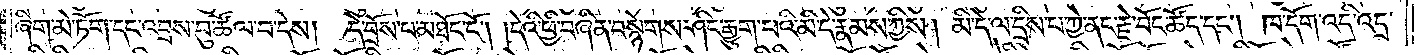ཞིག་མེ་ཏོག་དང་འབྲས་བུ་ཚོལ་བ་དེས། དེ་བྲོས་པ་མཐོང་ངོ༌། །དེའི་ཕྱི་བཞིན་བསྙེགས་ཤིང་རྒྱུག་པའི་མི་དེ་རྣམས་ཀྱིས། མི་དེ་ལ་དྲིས་པ་ཀྱེ་ནང་རྗེ་བོང་ཚོད་དང༌། ཁ་དོག་འདི་འདྲ་
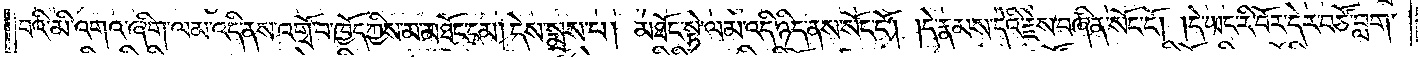བའི་མི་འགའ་ཞིག་ལམ་འདི་ནས་འགྲོ་བ་ཁྱོད་ཀྱིས་མ་མཐོང་ངམ། དེས་སྨྲས་པ། མཐོང་སྟེ་ལམ་འདི་ཉིད་ནས་སོང་ངོ༌། །དེ་རྣམས་དེའི་རྗེས་བཞིན་སོང་ངོ༌། །དེ་ཡང་རི་བོར་དེར་བཙོ་བླག་
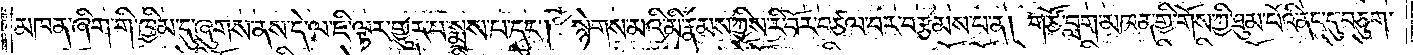མཁན་ཞིག་གི་ཁྱིམ་དུ་ཞུགས་ནས་དེ་ལ་ཇི་ལྟར་གྱུར་པ་སྨྲས་པ་དང༌། སྙེགས་མའི་མི་རྣམས་ཀྱིས་རི་བོར་བཙལ་བར་བརྩམས་པ་ན། གཙོ་བླག་མཁན་གྱི་གོས་ཀྱི་ཐུམ་པོའི་ནང་དུ་བཅུག་
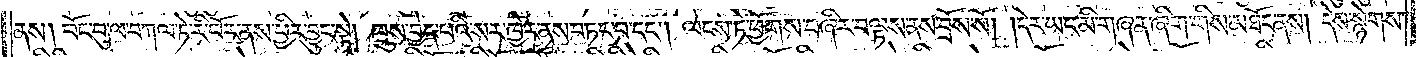ནས། བོང་བུ་ལ་བཀལ་ཏེ་རི་བོར་ནས་ཕྱིར་བྱུང་སྟེ། ཁྲུས་བྱེད་པའི་སར་ཁྱེར་ནས་བཏང་བ་དང༌། ལངས་ཏེ་ཕྱོགས་བཞིར་བལྟས་ནས་བྲོས་སོ། །དེར་ཡང་མི་གཞན་ཞིག་གིས་མཐོང་ནས། དེས་སྙེགས་
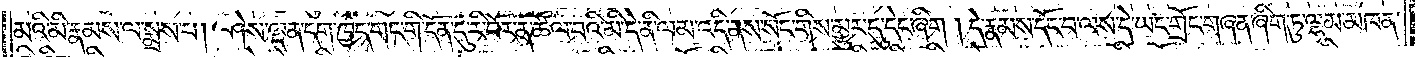མའི་མི་རྣམས་ལ་སྨྲས་པ། ཤེས་ལྡན་དག་ཁྱེད་གང་གི་དོན་དུ་རི་བོར་ན་ཚོལ་བའི་མི་དེ་ནི་ལམ་འདི་ནས་སོང་གིས་མྱུར་དུ་དེང་ཞིག །དེ་རྣམས་དོང་བ་ལས་དེ་ཡང་གྲོང་གཞན་ཞིག་ཏུ་ལྷམ་མཁན་
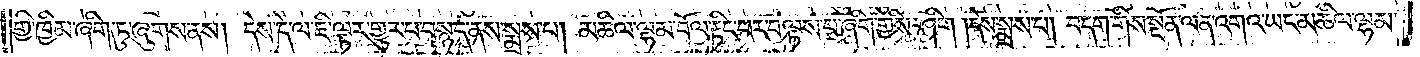གྱི་ཁྱིམ་ཞིག་ཏུ་ཞུགས་ནས། དེས་དེ་ལ་ཇི་ལྟར་གྱུར་པ་བསྙད་ནས་སྨྲས་པ། མཆིལ་ལྷམ་བོལ་རྟིང་པར་བལྟས་པ་ཞིག་གྱིས་ཤིག །དེས་སྨྲས་པ། བདག་གིས་སྔོན་ལན་འགའ་ཡང་མཆིལ་ལྷམ་
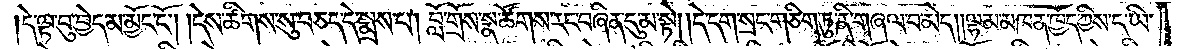།དེ་ལྟ་བུ་བྱེད་མ་མྱོང་ངོ༌། །དེས་ཚིགས་སུ་བཅད་དེ་སྨྲས་པ། བློ་གྲོས་སྣ་ཚོགས་རང་བཞིན་དུ་མ་སྟེ། །དེ་དག་སྲང་གཅིག་ཏུ་ནི་གཞལ་བ་མེད། །ལྷ་མ་མཁན་ཁྱོད་ཀྱིས་ང་ཡི་
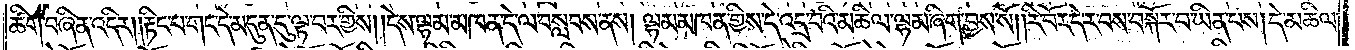ཚིག་བཞིན་འདིར། །རྟིང་པ་གང་དེ་མདུན་དུ་ལྟ་བར་གྱིས། །དེས་ལྷམ་མཁན་དེ་ལ་བསླབས་ནས། ལྷམ་མཁན་གྱིས་དེ་འདྲ་བའི་མཆིལ་ལྷམ་ཞིག་བྱས་སོ། །རི་བོར་དེ་ར་བས་བསྐོར་བ་ཡིན་པས། དེ་མཆིལ་
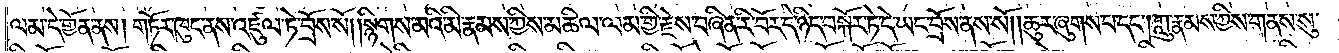ལམ་དེ་གྱོན་ནས། གཏོར་ཁུང་ནས་འཛུལ་ཏེ་བྲོས་སོ། །སྙིགས་མའི་མི་རྣམས་ཀྱིས་མཆིལ་ལམ་གྱི་རྗེས་བཞིན་རི་བོར་དེ་ཉིད་བསྐོར་ཏེ་དེ་ཡང་བྲོས་ནས་སོ། །ཆུར་ཞུགས་པ་དང༌། ཀླུ་རྣམས་ཀྱིས་གནས་སུ་
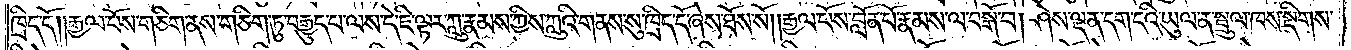ཁྲིད་དོ། །རྒྱལ་པོས་གཅིག་ནས་གཅིག་ཏུ་བརྒྱུད་པ་ལས་དེ་ཇི་ལྟར་ཀླུ་རྣམས་ཀྱིས་ཀླུའི་གནས་སུ་ཁྲིད་དོ་ཞེས་ཐོས་སོ། །རྒྱལ་པོས་བློན་པོ་རྣམས་ལ་བསྒོ་བ། ཤེས་ལྡན་དག་ངའི་ཡུལ་ན་སྦྲུལ་ཁས་སྡིགས་
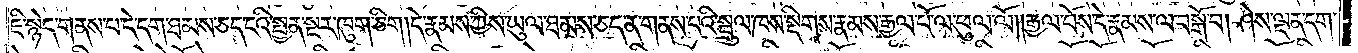ཇི་སྙེད་གནས་པ་དེ་དག་ཐམས་ཅད་ངའི་སྤྱན་སྔར་ཁུག་ཅིག །དེ་རྣམས་ཀྱིས་ཡུལ་ཐམས་ཅད་ན་གནས་པའི་སྦྲུལ་ཁས་སྡིགས་རྣམས་རྒྱལ་པོ་ལ་ཕུལ་ལོ། །རྒྱལ་པོས་དེ་རྣམས་ལ་བསྒོ་བ། ཤེས་ལྡན་དག་
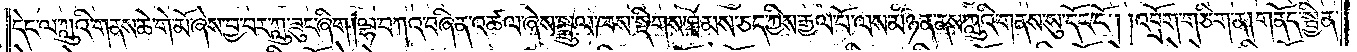དེང་ལ་ཀླུའི་གནས་ཆེ་གེ་མོ་ཞེས་བྱ་བར་ཀླུ་ཟུང་ཞིག །ལྷ་བཀའ་བཞིན་འཚལ་ཞེས་སྦྲུལ་ཁས་སྡིགས་ཐམས་ཅད་ཀྱིས་རྒྱལ་པོ་ལས་མཉན་ནས་ཀླུའི་གནས་སུ་དོང་ངོ༌། །འབྲོག་གཅིག་ན། གནོད་སྦྱིན་
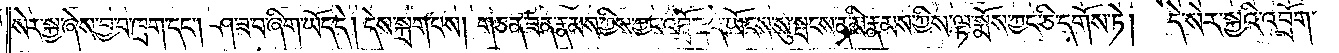སེར་སྐྱ་ཞེས་བྱ་བ་ཁྲག་དང༌། ཤ་ཟ་བ་ཞིག་ཡོད་དེ། དེས་སྐྲག་པས། གཅན་ཟན་རྣམས་ཀྱིས་ཀྱང་འབྲོག་དེ་ཡོངས་སུ་སྤངས་ན་མི་རྣམས་ཀྱིས་ལྟ་སྨོས་ཀྱང་ཅི་དགོས་ཏེ།  དེ་སེར་སྐྱའི་འབྲོག་
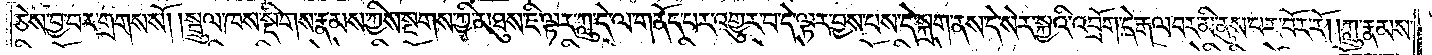ཅེས་བྱ་བར་གྲགས་སོ། །སྦྲུལ་ཁས་སྡིགས་རྣམས་ཀྱིས་སྔགས་ཀྱི་མཐུས་ཇི་ལྟར་ཀླུ་དེ་ལ་གནོད་པར་འགྱུར་བ་དེ་ལྟར་བྱས་པས་དེ་སྐྲག་ནས་དེ་སེར་སྐྱའི་འབྲོག་དེ་རྒལ་བར་མི་ནུས་པར་བོར་རོ། །ཀླུ་རྣམས་
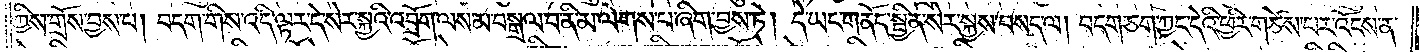ཀྱིས་གྲོས་བྱས་པ། བདག་གིས་འདི་ལྟར་དེ་སེར་སྐྱའི་འབྲོག་ལས་མ་བསྒྲལ་བ་ནི་མ་ལེགས་པ་ཞིག་བྱས་ཏེ། དེ་ཡང་གནོད་སྦྱིན་སེར་སྐྱས་བསད་ལ། བདག་ཅག་ཀྱང་དེའི་ཕྱིར་གཙེས་པར་འོངས་ན་
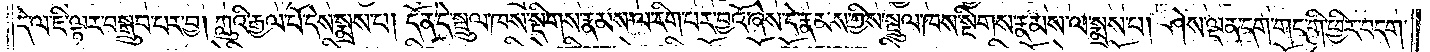དེ་ལ་ཇི་ལྟར་བསྒྲུབ་པར་བྱ། ཀླུའི་རྒྱལ་པོ་དེས་སྨྲས་པ། དོན་དེ་སྦྲུལ་ཁས་སྡིགས་རྣམས་ལ་རིག་པར་བྱའོ་ཞེས་དེ་རྣམས་ཀྱིས་སྦྲུལ་ཁས་སྡིགས་རྣམས་ལ་སྨྲས་པ། ཤེས་ལྡན་དག་གང་གི་ཕྱིར་བདག་
